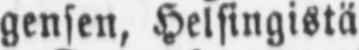gensen, Helsingistä
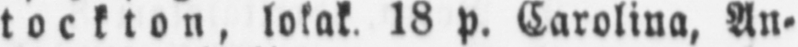Stockton, lokak 18 p. Carolina, An-
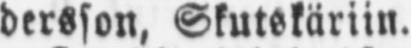dersson, Skutskäriin.
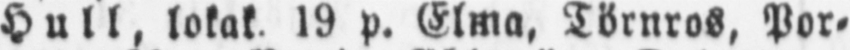Hull, lokak 19 p. Elma, Törnros, Por-
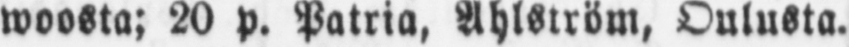woosta; 20 p. Patria, Ahlström, Oulusta.
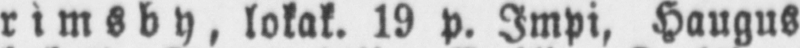Grimsb y, lokak. 19 p. Impi, Haugus
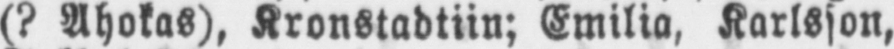(? Ahokas), Kronstadtiin; Emilia, Karlsson,
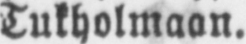Tukholmaan.
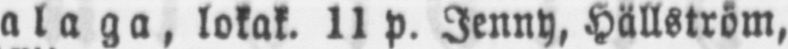Malaga, lokak. 11 p. Jenny, Hällström,
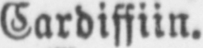Cardissiin.
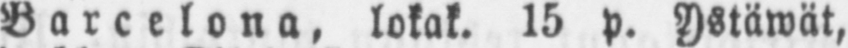Barcelona, lokak. 15 p. Ystäwät,
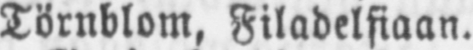Törnblom, Filadelfiaan.
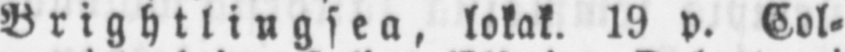Brightlingsea, lokak. 19 p. Col-
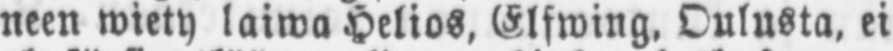neen wiety laiwa Helios, Elfwing. Oulusta, ei
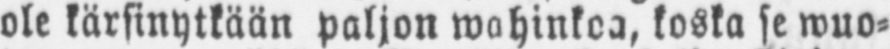ole kärsinytkään paljon wahinkoa, koska se wuo-
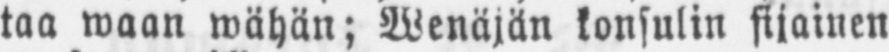toa waan wähän; Wenäjän konsulin sijainen
